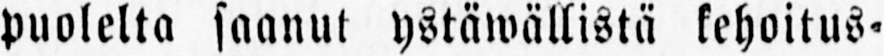puolelta saanut ystäwällistä kehoitus-
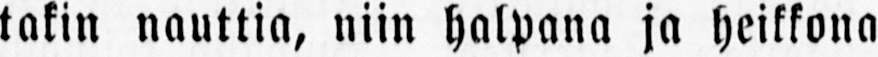takin nauttia, niin halpana ja heikkona
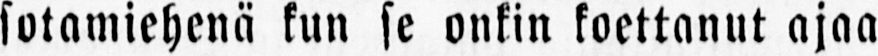sotamiehenä kun se onkin koettanut ajaa
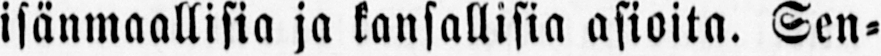isänmaallisia ja kansallisia asioita. Sen-
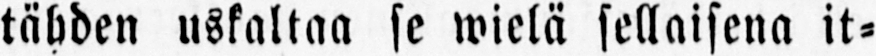tähden uskaltaa se wielä sellaisena it-
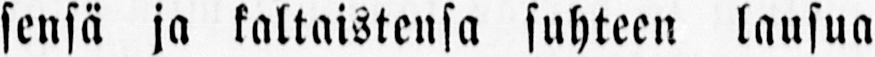sensä ja kaltaistensa suhteen lausua
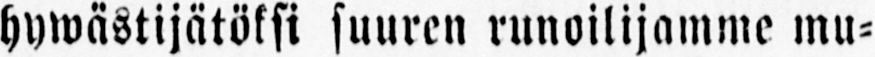hywästijätöksi suuren runoilijamme mu-
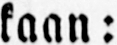kaan :
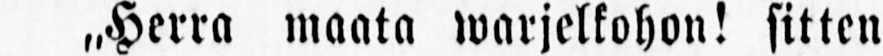˶Herra maata warjelkohon! sitten
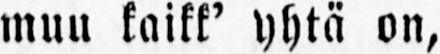muu kaikk' yhtä on,
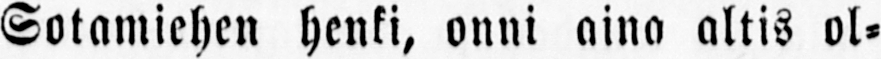Sotamiehen henki, onni aina altis ol-
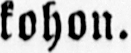kohon.
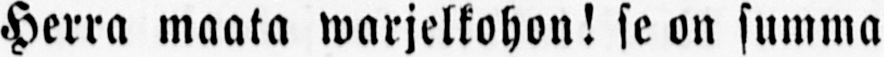Herra maata warjelkohon! se on summa
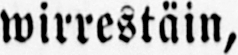wirrestäin,
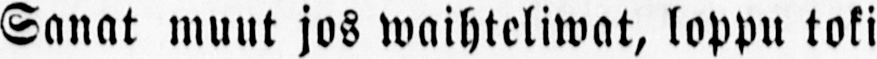Sanat muut jos waihteliwat, loppu toki
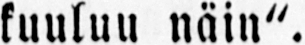kuuluu näin".
